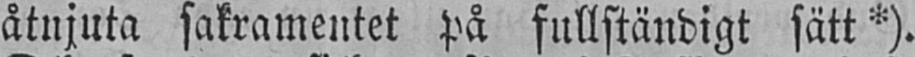åtnjuta sakramentet på fullständigt sätt*).
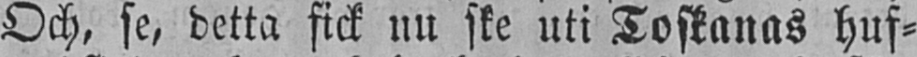Och, se, detta fick nu ske uti Toskanas huf-
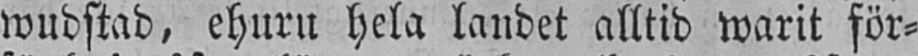wudstad, ehuru hela landet alltid warit för-
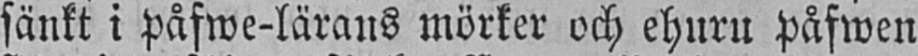sänkt i påfwe-lärans mörker och ehuru påfwen
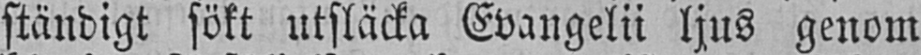ständigt sökt utsläcka Evangelii ljus genom
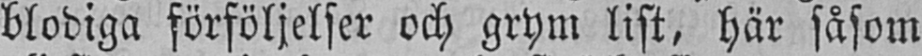blodiga förföljelser och grym list, här såsom
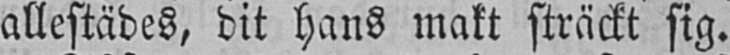allestädes, dit hans makt sträckt sig.
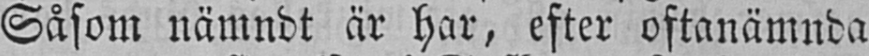Såsom nämndt är har, efter oftanämnda
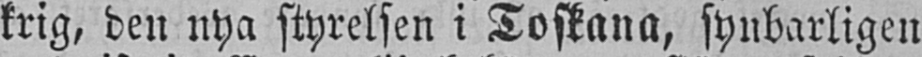krig, den nya styrelsen i Toskana, synbarligen
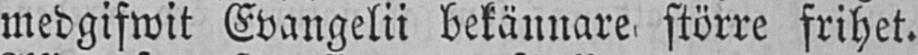medgifwit Evangelii bekännare större frihet.
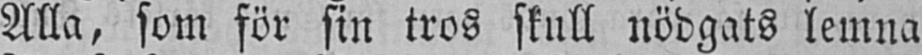Alla, som för sin tros skull nödgats lemna
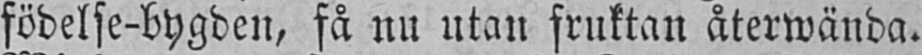födelse-bygden, få nu utan fruktan återwända.
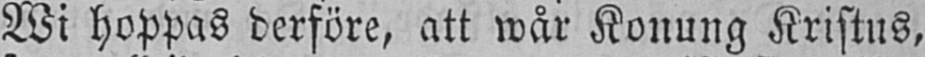Wi hoppas derföre, att wår Konung Kristus,
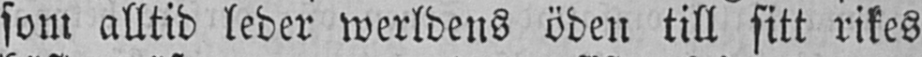som alltid leder werldens öden till sitt rikes
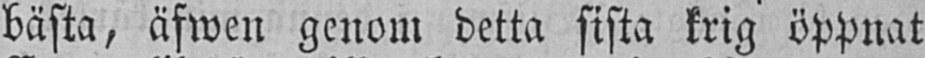bästa, äfwen genom detta sista krig öppnat
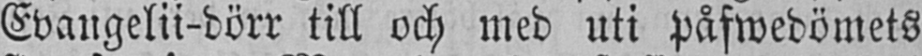Evangelii-dörr till och med uti påfwedömets
